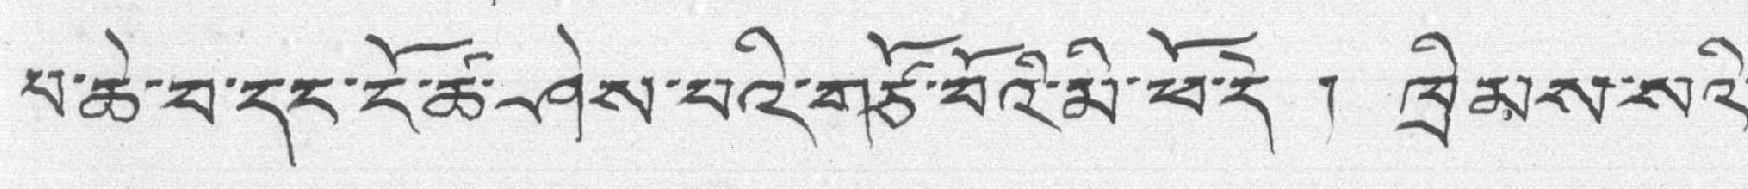པ་ཆེ་བ་དང་ངོ་ཚ་ཤེས་པའི་གཙོ་བོའི་མི་ཕོ་དེ ། ཁྲིམས་སའི་
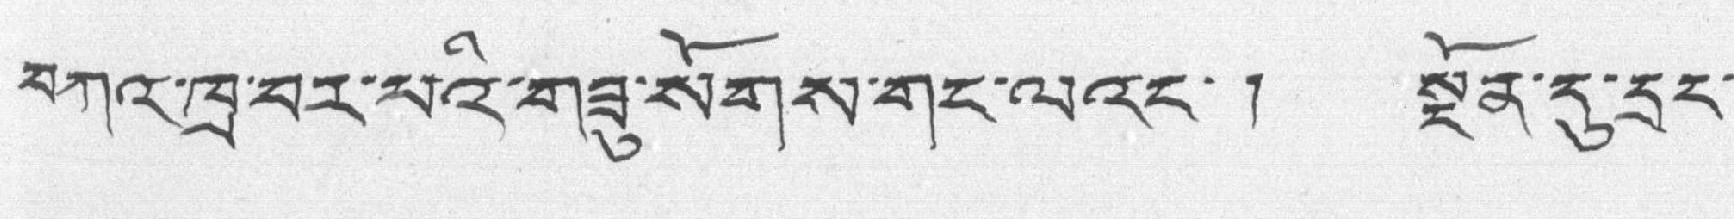བཀའ་ཁྲ་བར་པའི་གཟུ་སོགས་གང་ལ་དང་། སྔོན་དུ་དྲང་
